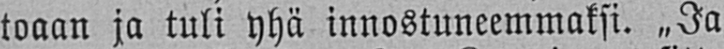toaan ja tuli yhä innostuneemmaksi. ˶Ja
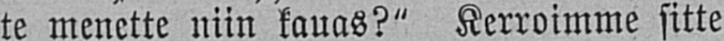te menette niin kauas?" Kerroimme sitte
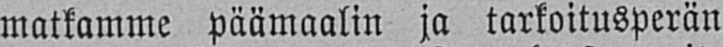matkamme päämaalin ja tarkoitusperän
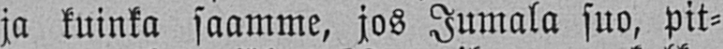ja kuinka saamme, jos Jumala suo, Pit-
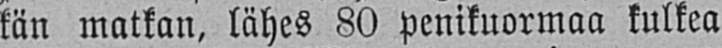kän matkan, lähes 80 penikuormaa kulkea
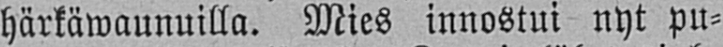härkäwaunuilla. Mies innostui nyt pu-
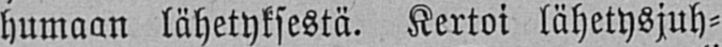humaan lähetyksestä. Kertoi lähetysjuh-
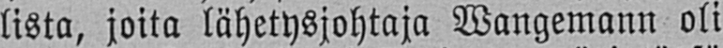lista, joita lähetysjohtaja Wangemann oli
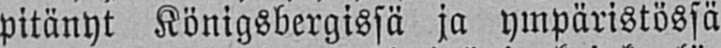pitänyt Königsbergissä ja ympäristössä
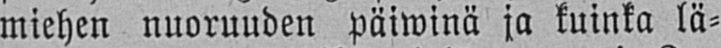miehen nuoruuden päiwinä ja kuinka lä-
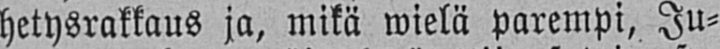hetysrakkaus ja, mikä wielä parempi, Ju-
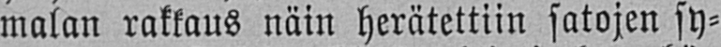malan rakkaus näin herätettiin satojen sy-
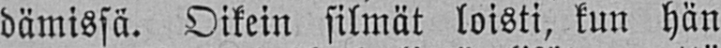dämissä. Oikein silmät loisti, kun hän
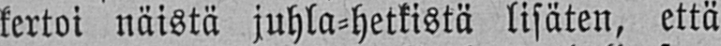kertoi näistä juhla-hetkistä lisäten, että
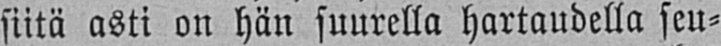siitä asti on hän suurella hartaudella seu-
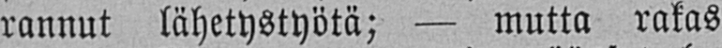rannut lähetystyötä; — mutta rakas
